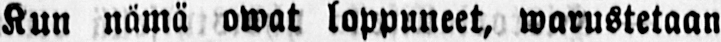Kun nämä owat loppuneet, warustetaan
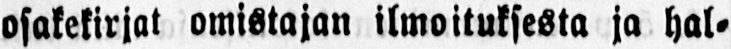osakekirjat omistajan ilmoituksesta ja hal-
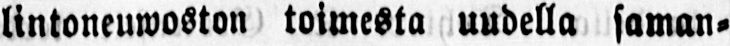lintoneuwoston toimesta uudella saman-
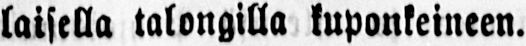laisella talongilla kuponkeineen.
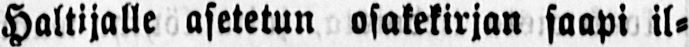Haltijalle asetetun osakekirjan saapi il-
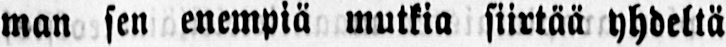man sen enempiä mutkia siirtää yhdeltä
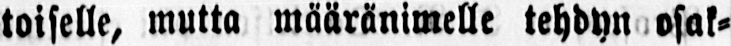toiselle, mutta määränimelle tehdyn osak-
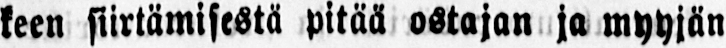keen siirtämisestä pitää ostajan ja myyjän
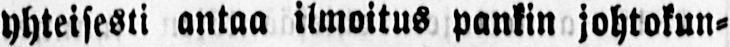yhteisesti antaa ilmoitus pankin johtokun-
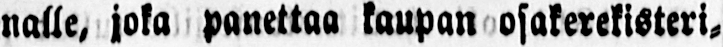nalle, joka panettaa kaupan osakerekisteri-
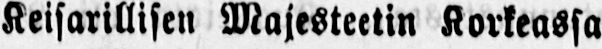Keisarillisen Majesteetin Korkeassa
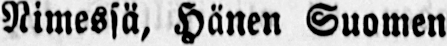Nimessä, Hänen Suomen
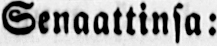Senaattinsa:
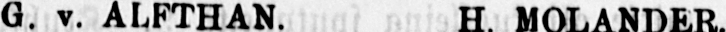G. v. ALFTHAN. H. MOLANDER.
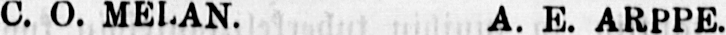C. O. MELAN. A. E. ARPPE.
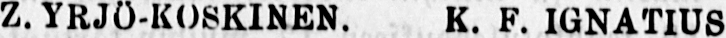Z. YRJÖ-KOSKINEN. K. F. IGNATIUS
